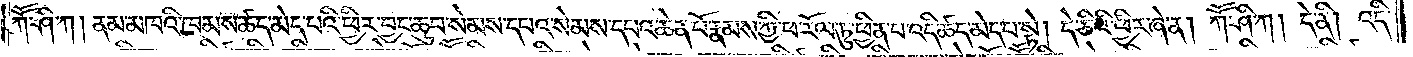ཀཽ་ཤི་ཀ། ནམ་མཁའི་ཁམས་ཚད་མེད་པའི་ཕྱིར་བྱང་ཆུབ་སེམས་དཔའ་སེམས་དཔའ་ཆེན་པོ་རྣམས་ཀྱི་ཕ་རོལ་ཏུ་ཕྱིན་པ་འདི་ཚད་མེད་པ་སྟེ། དེ་ཅིའི་ཕྱིར་ཞེ་ན། ཀཽ་ཤི་ཀ། དེ་ནི། འདི་
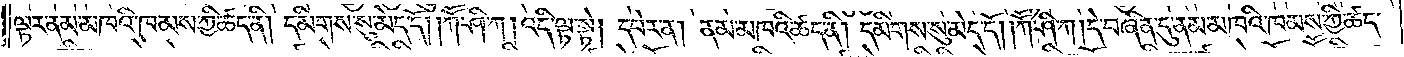ལྟར་ནམ་མཁའི་ཁམས་ཀྱི་ཚད་ནི། དམིགས་སུ་མེད་དོ། །ཀཽ་ཤི་ཀ། འདི་ལྟ་སྟེ། དཔེར་ན། ནམ་མཁའི་ཚད་ནི། དམིགས་སུ་མེད་དོ། །ཀཽ་ཤི་ཀ། དེ་བཞིན་དུ་ནམ་མཁའི་ཁམས་ཀྱི་ཚད་
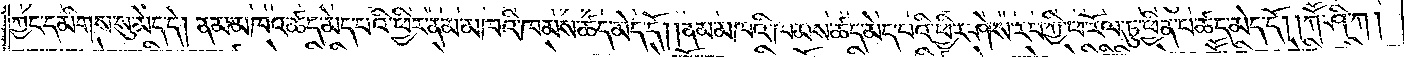ཀྱང་དམིགས་སུ་མེད་དེ། ནམ་མཁའ་ཚད་མེད་པའི་ཕྱིར་ནམ་མཁའི་ཁམས་ཚད་མེད་དོ། །ནམ་མཁའི་ཁམས་ཚད་མེད་པའི་ཕྱིར་ཤེས་རབ་ཀྱི་ཕ་རོལ་ཏུ་ཕྱིན་པ་ཚད་མེད་དོ། །ཀཽ་ཤི་ཀ།
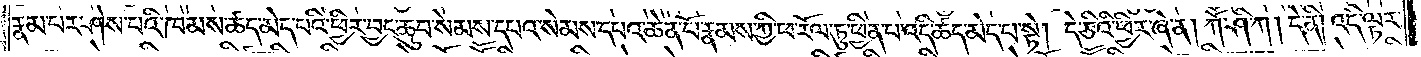རྣམ་པར་ཤེས་པའི་ཁམས་ཚད་མེད་པའི་ཕྱིར་བྱང་ཆུབ་སེམས་དཔའ་སེམས་དཔའ་ཆེན་པོ་རྣམས་ཀྱི་ཕ་རོལ་ཏུ་ཕྱིན་པ་འདི་ཚད་མེད་པ་སྟེ། དེ་ཅིའི་ཕྱིར་ཞེ་ན། ཀཽ་ཤི་ཀ། དེ་ནི། འདི་ལྟར་
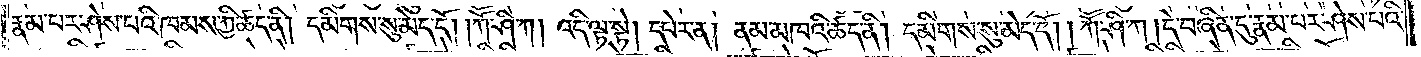རྣམ་པར་ཤེས་པའི་ཁམས་ཀྱི་ཚད་ནི། དམིགས་སུ་མེད་དོ། །ཀཽ་ཤི་ཀ། འདི་ལྟ་སྟེ། དཔེར་ན། ནམ་མཁའི་ཚད་ནི། དམིགས་སུ་མེད་དོ། །ཀཽ་ཤི་ཀ། དེ་བཞིན་དུ་རྣམ་པར་ཤེས་པའི་
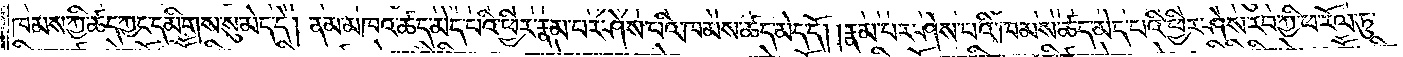ཁམས་ཀྱི་ཚད་ཀྱང་དམིགས་སུ་མེད་དེ། ནམ་མཁའ་ཚད་མེད་པའི་ཕྱིར་རྣམ་པར་ཤེས་པའི་ཁམས་ཚད་མེད་དོ། །རྣམ་པར་ཤེས་པའི་ཁམས་ཚད་མེད་པའི་ཕྱིར་ཤེས་རབ་ཀྱི་ཕ་རོལ་ཏུ་
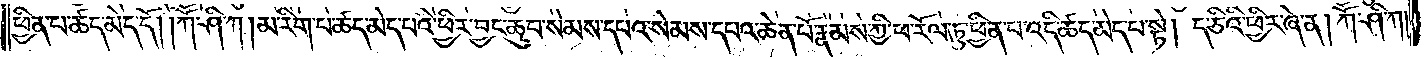ཕྱིན་པ་ཚད་མེད་དོ། །ཀཽ་ཤི་ཀ། མ་རིག་པ་ཚད་མེད་པའི་ཕྱིར་བྱང་ཆུབ་སེམས་དཔའ་སེམས་དཔའ་ཆེན་པོ་རྣམས་ཀྱི་ཕ་རོལ་ཏུ་ཕྱིན་པ་འདི་ཚད་མེད་པ་སྟེ། དེ་ཅིའི་ཕྱིར་ཞེ་ན། ཀཽ་ཤི་ཀ།
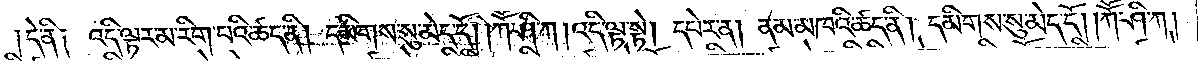དེ་ནི། འདི་ལྟར་མ་རིག་པའི་ཚད་ནི། དམིགས་སུ་མེད་དོ། །ཀཽ་ཤི་ཀ། འདི་ལྟ་སྟེ། དཔེར་ན། ནམ་མཁའི་ཚད་ནི། དམིགས་སུ་མེད་དོ། ཀཽ་ཤི་ཀ།
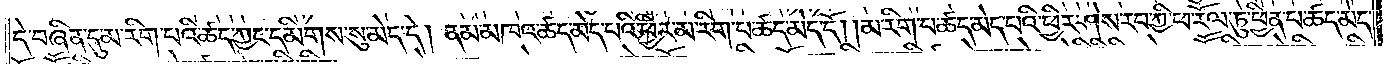དེ་བཞིན་དུ་མ་རིག་པའི་ཚད་ཀྱང་དམིགས་སུ་མེད་དེ། ནམ་མཁའ་ཚད་མེད་པའི་ཕྱིར་མ་རིག་པ་ཚད་མེད་དོ། །མ་རིག་པ་ཚད་མེད་པའི་ཕྱིར་ཤེས་རབ་ཀྱི་ཕ་རོལ་ཏུ་ཕྱིན་པ་ཚད་མེད་
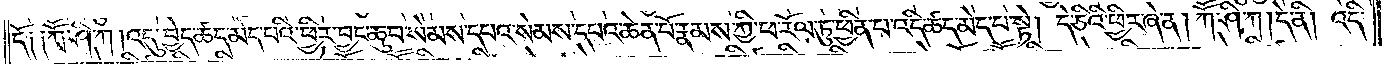དོ༑ ༑ཀཽ་ཤི་ཀ། འདུ་བྱེད་ཚད་མེད་པའི་ཕྱིར་བྱང་ཆུབ་སེམས་དཔའ་སེམས་དཔའ་ཆེན་པོ་རྣམས་ཀྱི་ཕ་རོལ་ཏུ་ཕྱིན་པ་འདི་ཚད་མེད་པ་སྟེ། དེ་ཅིའི་ཕྱིར་ཞེ་ན། ཀཽ་ཤི་ཀ། དེ་ནི། འདི་
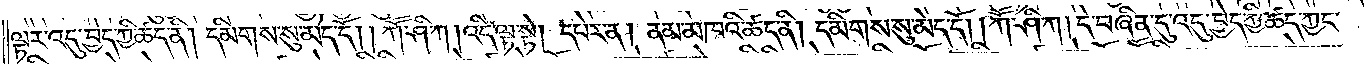ལྟར་འདུ་བྱེད་ཀྱི་ཚད་ནི། དམིགས་སུ་མེད་དོ། །ཀཽ་ཤི་ཀ། འདི་ལྟ་སྟེ། དཔེར་ན། ནམ་མཁའི་ཚད་ནི། དམིགས་སུ་མེད་དོ། །ཀཽ་ཤི་ཀ། དེ་བཞིན་དུ་འདུ་བྱེད་ཀྱི་ཚད་ཀྱང་
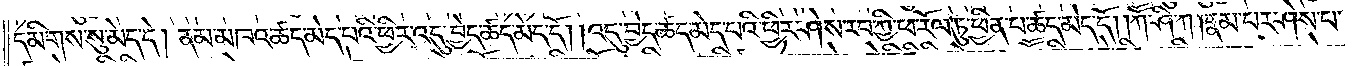དམིགས་སུ་མེད་དེ། ནམ་མཁའ་ཚད་མེད་པའི་ཕྱིར་འདུ་བྱེད་ཚད་མེད་དོ། །འདུ་བྱེད་ཚད་མེད་པའི་ཕྱིར་ཤེས་རབ་ཀྱི་ཕ་རོལ་ཏུ་ཕྱིན་པ་ཚད་མེད་དོ། །ཀཽ་ཤི་ཀ། རྣམ་པར་ཤེས་པ་
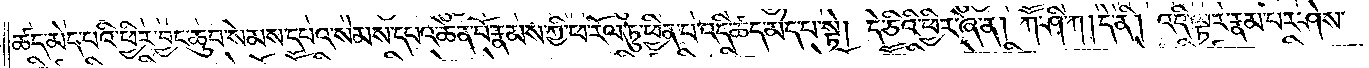ཚད་མེད་པའི་ཕྱིར་བྱང་ཆུབ་སེམས་དཔའ་སེམས་དཔའ་ཆེན་པོ་རྣམས་ཀྱི་ཕ་རོལ་ཏུ་ཕྱིན་པ་འདི་ཚད་མེད་པ་སྟེ། དེ་ཅིའི་ཕྱིར་ཞེ་ན། ཀཽ་ཤི་ཀ། དེ་ནི། འདི་ལྟར་རྣམ་པར་ཤེས་
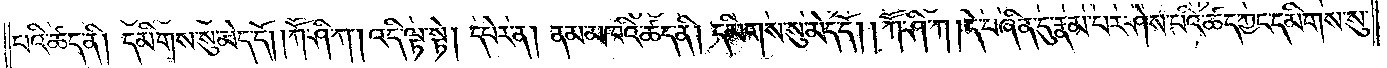པའི་ཚད་ནི། དམིགས་སུ་མེད་དོ། །ཀཽ་ཤི་ཀ། འདི་ལྟ་སྟེ། དཔེར་ན། ནམ་མཁའི་ཚད་ནི། དམིགས་སུ་མེད་དོ། །ཀཽ་ཤི་ཀ། དེ་བཞིན་དུ་རྣམ་པར་ཤེས་པའི་ཚད་ཀྱང་དམིགས་སུ་
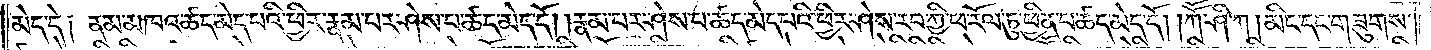མེད་དེ། ནམ་མཁའ་ཚད་མེད་པའི་ཕྱིར་རྣམ་པར་ཤེས་པ་ཚད་མེད་དོ། །རྣམ་པར་ཤེས་པ་ཚད་མེད་པའི་ཕྱིར་ཤེས་རབ་ཀྱི་ཕ་རོལ་ཏུ་ཕྱིན་པ་ཚད་མེད་དོ། །ཀཽ་ཤི་ཀ། མིང་དང་གཟུགས་
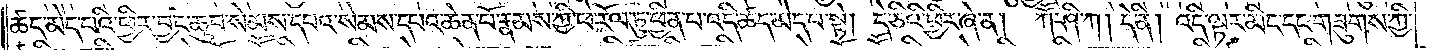ཚད་མེད་པའི་ཕྱིར་བྱང་ཆུབ་སེམས་དཔའ་སེམས་དཔའ་ཆེན་པོ་རྣམས་ཀྱི་ཕ་རོལ་ཏུ་ཕྱིན་པ་འདི་ཚད་མེད་པ་སྟེ། དེ་ཅིའི་ཕྱིར་ཞེ་ན། ཀཽ་ཤི་ཀ། དེ་ནི། འདི་ལྟར་མིང་དང་གཟུགས་ཀྱི་
